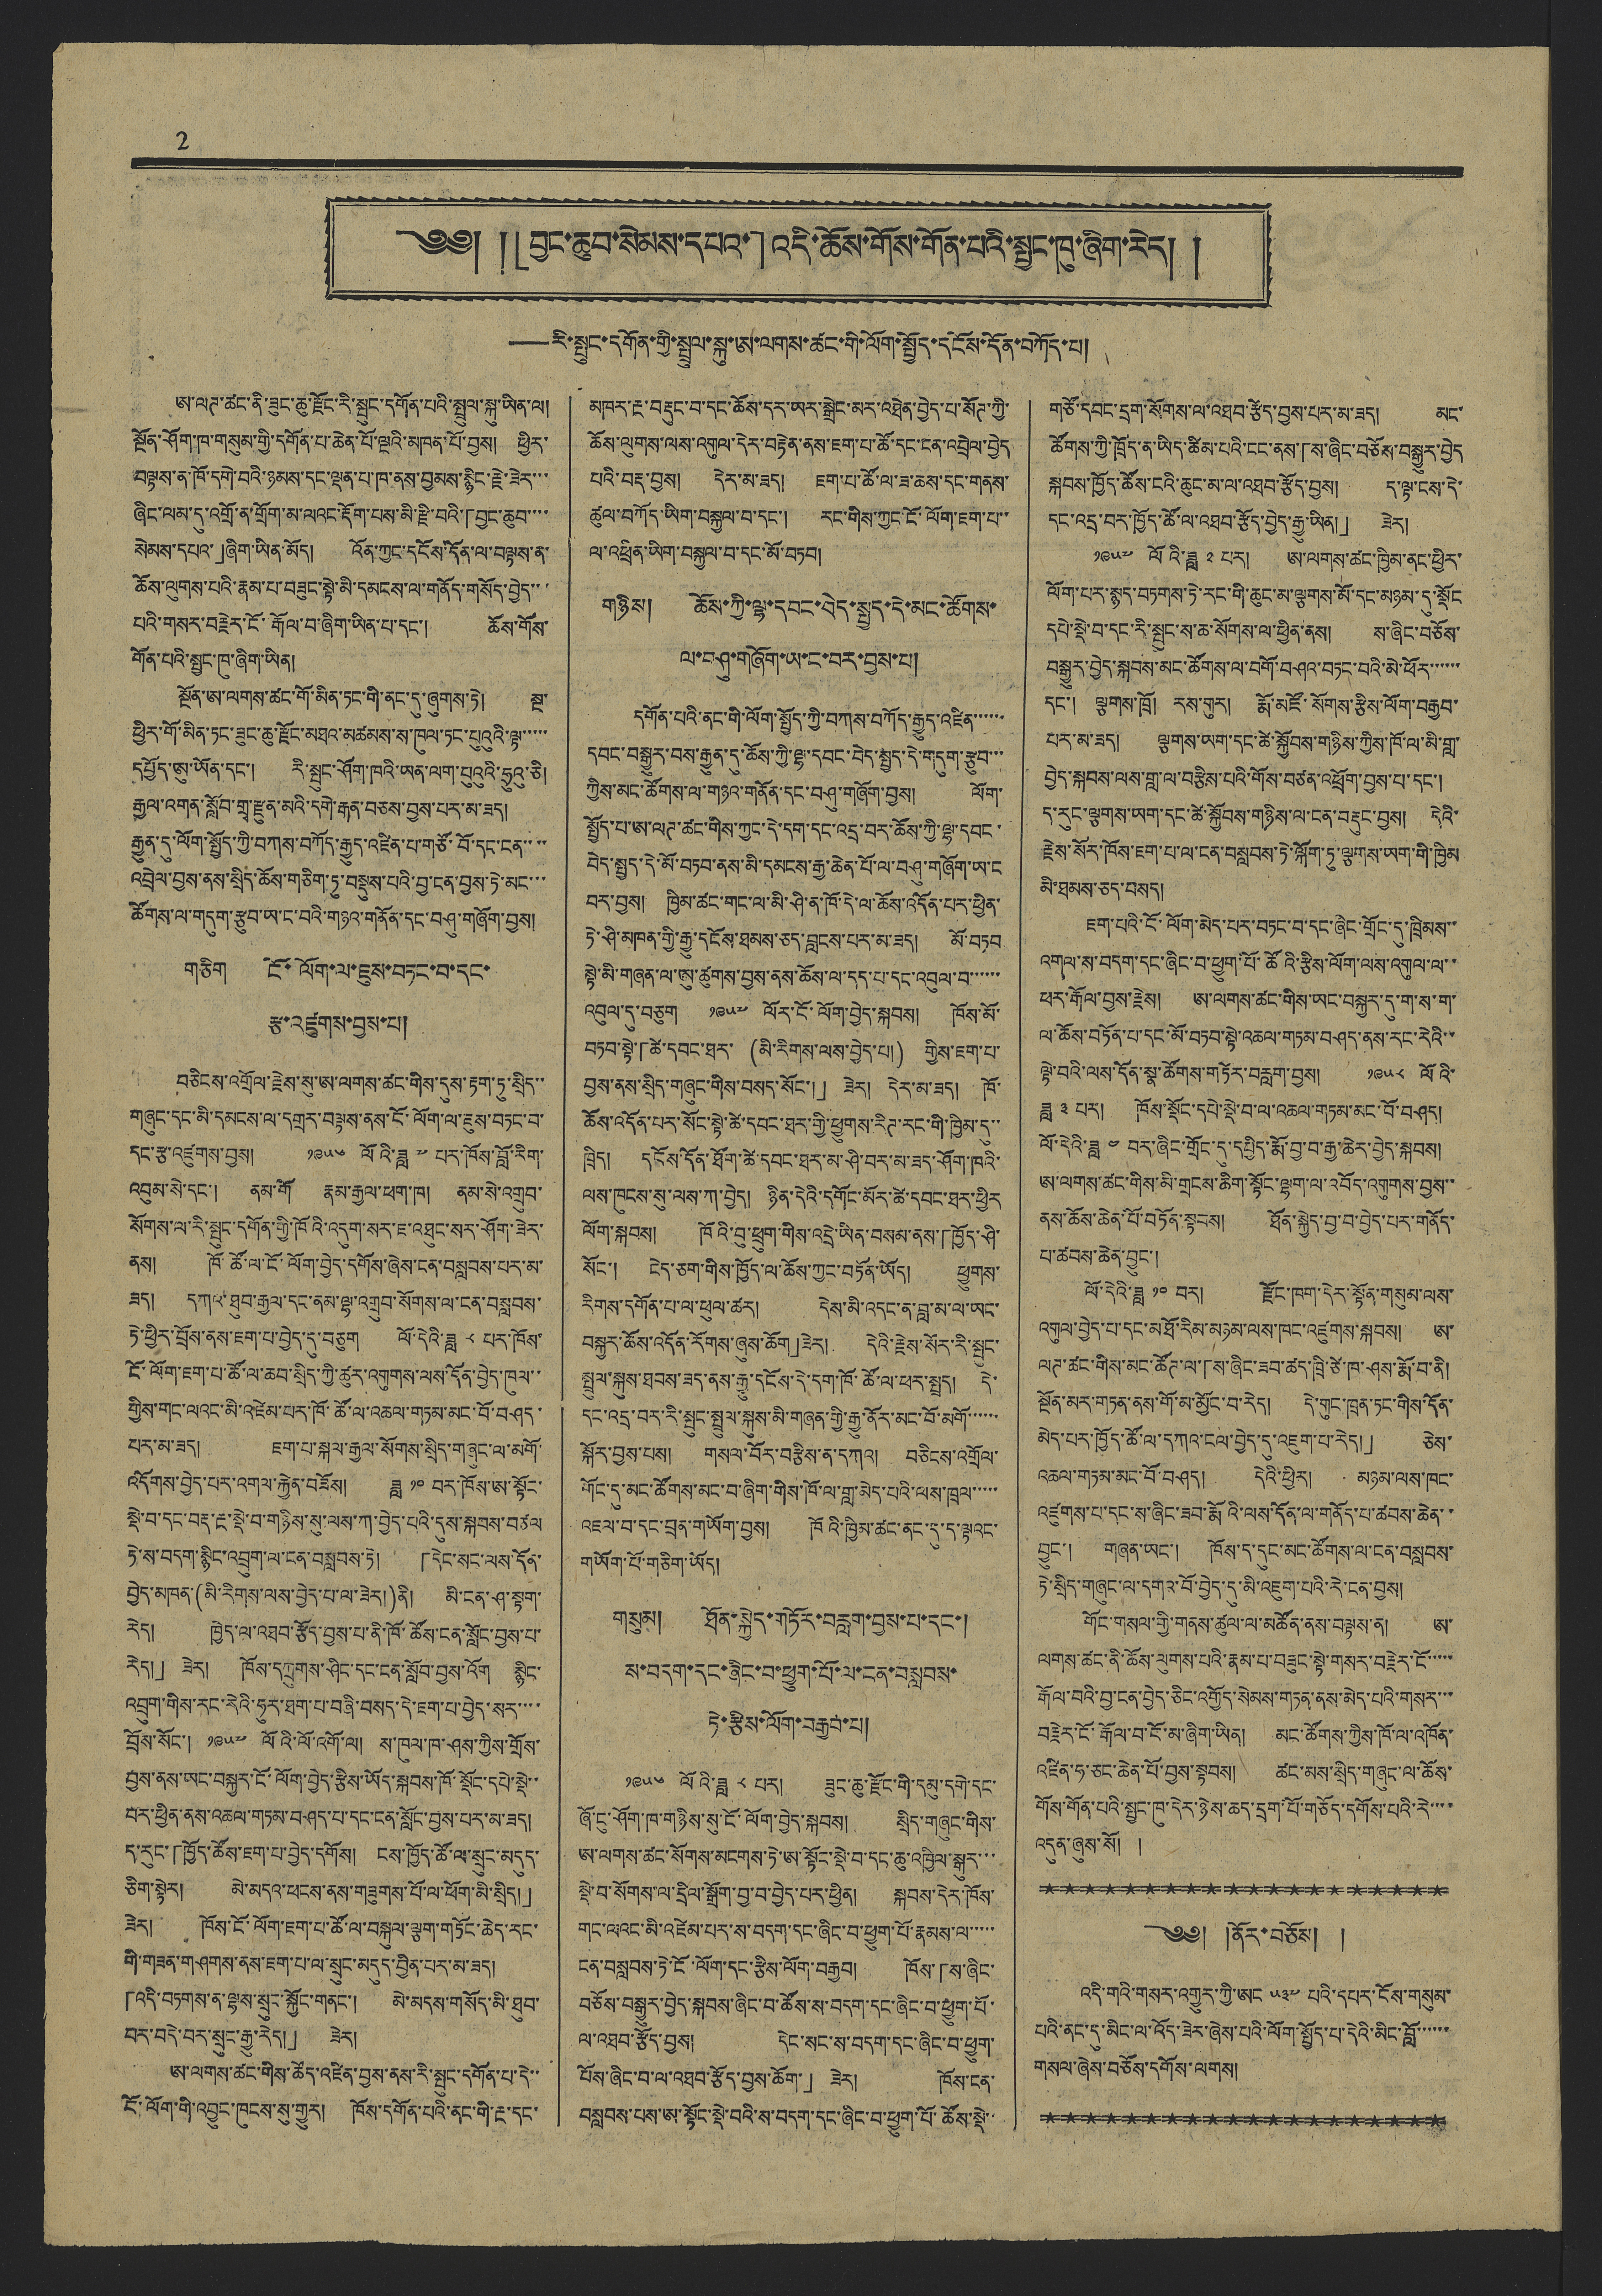2
༄༅། །「བྱང་ཆུབ་སེམས་དཔའ་」འདི་ཆོས་གོས་གོན་པའི་སྤྱང་ཁུ་ཞིག་རེད། །
——རི་སྤུང་དགོན་གྱི་སྤྲུལ་སྐུ་ཨ་ལགས་ཚང་གི་ལོག་སྤྱོད་དངོས་དོན་བཀོད་པ།
ཨ་ལཊ་ཚང་ནི་ཟུང་ཆུ་རྫོང་རི་སྤུང་དགོན་པའི་སྤྲུལ་སྐུ་ཡིན་ལ།
སྔོན་ཤོག་ཁ་གསུམ་གྱི་དགོན་པ་ཆེན་པོ་ལྔའི་མཁན་པོ་བྱས། ཕྱིར་
བལྟས་ན་ཁོ་དགེ་བའི་ཉམས་དང་ལྡན་པ་ཁ་ནས་བྱམས་སྙིང་རྗེ་ཟེར་་་
ཞིང་ལམ་དུ་འགྲོ་ན་གྲོག་མ་ལའང་རྡོག་པས་མི་རྫི་བའི་「བྱང་ཆུབ་་་་
སེམས་དཔའ་」ཞིག་ཡིན་མོད། འོན་ཀྱང་དངོས་དོན་ལ་བལྟས་ན་
ཆོས་ལུགས་པའི་རྣམ་པ་བཟུང་སྟེ་མི་དམངས་ལ་གནོད་གསོད་བྱེད་་་
པའི་གསར་བརྗེར་ངོ་རྒོལ་བ་ཞིག་ཡིན་པ་དང་། ཆོས་གོས་
གོན་པའི་སྤྱང་ཁུ་ཞིག་ཡིན།
སྔོན་ཨ་ལགས་ཚང་གོ་མིན་ཏང་གི་ནང་དུ་ཞུགས་ཏེ། སྔ་
ཕྱིར་གོ་མིན་ཏང་ཟུང་ཆུ་རྫོང་མཐའ་མཚམས་ས་ཁུལ་ཏང་པུའུའི་ལྟ་་་་་
དཔྱོད་ཨུ་ཡོན་དང་། རི་སྤུང་ཤོག་ཁའི་ཡན་ལག་པུའུའི་ཧྲུའུ་ཅི།
རྒྱལ་འགན་སློབ་གྲྭ་རྫུན་མའི་དགེ་རྒན་བཅས་བྱས་པར་མ་ཟད།
རྒྱུན་དུ་ལོག་སྤྱོད་ཀྱི་བཀས་བཀོད་རྒྱུད་འཛིན་པ་གཙོ་བོ་དང་ངན་་་་
འབྲེལ་བྱས་ནས་སྲིད་ཆོས་གཅིག་ཏུ་བསྡུས་པའི་བྱ་ངན་བྱས་ཏེ་མང་་་
ཚོགས་ལ་གདུག་རྩུབ་ཡ་ང་བའི་གཉའ་གནོན་དང་བཤུ་གཞོག་བྱས།
གཅིག ངོ་ལོག་ལ་ཇུས་བཏང་བ་དང་
རྩ་འཛུགས་བྱས་པ།
བཅིངས་འགྲོལ་རྗེས་སུ་ཨ་ལགས་ཚང་གིས་དུས་རྟག་ཏུ་སྲིད་་
གཞུང་དང་མི་དམངས་ལ་དགྲར་བལྟས་ནས་ངོ་ལོག་ལ་ཇུས་བཏང་བ་
དང་རྩ་འཛུགས་བྱས། ༡༩༥༦ ལོའི་ཟླ ༧ པར་ཁོས་བློ་རིག་
འབུམ་སེ་དང་། ནམ་གོ རྣམ་རྒྱལ་ཕག་ཁ། ནམ་སེ་འགྲུབ་
སོགས་ལ་རི་སྤུང་དགོན་གྱི་ཁོའི་འདུག་སར་ཇ་འཐུང་སར་ཤོག་ཟེར་
ནས། ཁོ་ཚོ་ལ་ངོ་ལོག་བྱེད་དགོས་ཞེས་ངན་བསླབས་པར་མ་
ཟད། དཀའ་ཐུབ་རྒྱལ་དང་ནམ་ལྷ་འགྲུབ་སོགས་ལ་ངན་བསླབས་
ཏེ་ཕྱིར་བྲོས་ནས་ཇག་པ་བྱེད་དུ་བཅུག ལོ་དེའི་ཟླ ༨ པར་ཁོས་
ངོ་ལོག་ཇག་པ་ཚོ་ལ་ཆབ་སྲིད་ཀྱི་ཚུར་འགུགས་ལས་དོན་བྱེད་ཁུལ་་
གྱིས་གང་ལའང་མི་འཛེམ་པར་ཁོ་ཚོ་ལ་འཆལ་གཏམ་མང་བོ་བཤད་
པར་མ་ཟད། ཇག་པ་སྐལ་རྒྱལ་སོགས་སྲིད་གཞུང་ལ་མགོ་
འདོགས་བྱེད་པར་འགལ་རྐྱེན་བཟོས། ཟླ ༡༠ བར་ཁོས་ཨ་སྟོང་
སྡེ་བ་དང་བརྡ་རྔ་སྡེ་བ་གཉིས་སུ་ལས་ཀ་བྱེད་པའི་དུས་སྐབས་བཙལ
ཏེ་ས་བདག་སྙིང་འབྲུག་ལ་ངན་བསླབས་ཏེ། 「དེང་སང་ལས་དོན་
བྱེད་མཁན་(མི་རིགས་ལས་བྱེད་པ་ལ་ཟེར།)ནི། མི་ངན་ཤ་སྟག་
རེད། ཁྱེད་ལ་འཐབ་རྩོད་བྱས་པ་ནི་ཁོ་ཚོས་ངན་སློང་བྱས་པ་
རེད།」 ཟེར། ཁོས་དཀྲུགས་ཤིང་དང་ངན་སློབ་བྱས་འོག སྙིང་
འབྲུག་གིས་རང་རེའི་ཧུར་ཐག་པ་བཞི་བསད་དེ་ཇག་པ་བྱེད་སར་་་་
བྲོས་སོང་། ༡༩༥༧ ལོའི་ལོ་འགོ་ལ། ས་ཁུལ་ཁ་ཤས་ཀྱིས་གྲོས་
བྱས་ནས་ཡང་བསྐྱར་ངོ་ལོག་བྱེད་རྩིས་ཡོད་སྐབས་ཁོ་སྡོང་དཔེ་སྡེ་་
བར་ཕྱིན་ནས་འཆལ་གཏམ་བཤད་པ་དང་ངན་སློང་བྱས་པར་མ་ཟད།
ད་རུང་「ཁྱོད་ཚོས་ཇག་པ་བྱེད་དགོས། ངས་ཁྱོད་ཚོ་ལ་སྲུང་མདུད་
ཅིག་སྟེར། མེ་མདའ་ཕངས་ནས་གཟུགས་པོ་ལ་ཕོག་མི་སྲིད།」
ཟེར། ཁོས་ངོ་ལོག་ཇག་པ་ཚོ་ལ་བསྐུལ་ལྕག་གཏོང་ཆེད་རང་
གི་གཟན་གཤགས་ནས་ཇག་པ་ལ་སྲུང་མདུད་བྱིན་པར་མ་ཟད།
「འདི་བཏགས་ན་ལྷས་སྲུང་སྐྱོང་གནང་། མེ་མདས་གསོད་མི་ཐུབ་
བར་བདེ་བར་སྲུང་རྒྱུ་རེད།」 ཟེར།
ཨ་ལགས་ཚང་གིས་ཚོད་འཛིན་བྱས་ནས་རི་སྤུང་དགོན་པ་དེ་་
ངོ་ལོག་གི་འབྱུང་ཁུངས་སུ་གྱུར། ཁོས་དགོན་པའི་ནང་གི་རྔ་དང་
མཁར་རྔ་བརྡུང་བ་དང་ཆོས་དར་ཡར་སྒྲེང་མར་འཐེན་བྱེད་པ་སོཊ་ཀྱི་
ཆོས་ལུགས་ལས་འགུལ་དེར་བརྟེན་ནས་ཇག་པ་ཚོ་དང་ངན་འབྲེལ་བྱེད
པའི་བརྡ་བྱས། དེར་མ་ཟད། ཇག་པ་ཚོ་ལ་ཇ་ཆས་དང་གནས་
ཚུལ་བཀོད་ཡིག་བསྐྱལ་བ་དང་། རང་གིས་ཀྱང་ངོ་ལོག་ཇག་པ་་
ལ་འཕྲིན་ཡིག་བསྐྱལ་བ་དང་མོ་བཏབ།
གཉིས། ཆོས་ཀྱི་ལྷ་དབང་བེད་སྤྱད་དེ་མང་ཚོགས་
ལ་བཤུ་གཞོག་ཡ་ང་བར་བྱས་པ།
དགོན་པའི་ནང་གི་ལོག་སྤྱོད་ཀྱི་བཀས་བཀོད་རྒྱུད་འཛིན་་་་་་
དབང་བསྒྱུར་བས་རྒྱུན་དུ་ཆོས་ཀྱི་ལྷ་དབང་བེད་སྤྱད་དེ་གདུག་རྩུབ་་་
ཀྱིས་མང་ཚོགས་ལ་གཉའ་གནོན་དང་བཤུ་གཞོག་བྱས། ལོག་
སྤྱོད་པ་ཨ་ལཊ་ཚང་གིས་ཀྱང་དེ་དག་དང་འདྲ་བར་ཆོས་ཀྱི་ལྷ་དབང་
བེད་སྤྱད་དེ་མོ་བཏབ་ནས་མི་དམངས་རྒྱ་ཆེན་པོ་ལ་བཤུ་གཞོག་ཡ་ང
བར་བྱས། ཁྱིམ་ཚང་གང་ལ་མི་ཤི་ན་ཁོ་དེ་ལ་ཆོས་འདོན་པར་ཕྱིན་
ཏེ་ཤི་མཁན་གྱི་རྒྱུ་དངོས་ཐམས་ཅད་བླངས་པར་མ་ཟད། མོ་བཏབ
སྟེ་མི་གཞན་ལ་ཨུ་ཚུགས་བྱས་ནས་ཆོས་ལ་དད་པ་དང་འབུལ་བ་་་་་་
འབུལ་དུ་བཅུག ༡༩༥༧ ལོར་ངོ་ལོག་བྱེད་སྐབས། ཁོས་མོ་
བཏབ་སྟེ་「ཚེ་དབང་ཐར་ (མི་རིགས་ལས་བྱེད་པ།) གྱིས་ཇག་པ་
བྱས་ནས་སྲིད་གཞུང་གིས་བསད་སོང་།」 ཟེར། དེར་མ་ཟད། ཁོ་
ཆོས་འདོན་པར་སོང་སྟེ་ཚེ་དབང་ཐར་གྱི་ཕྱུགས་རིཊ་རང་གི་ཁྱིམ་དུ་་
ཁྲིད། དངོས་དོན་ཐོག་ཚེ་དབང་ཐར་མ་ཤི་བར་མ་ཟད་ཤོག་ཁའི་
ལས་ཁུངས་སུ་ལས་ཀ་བྱེད། ཉིན་དེའི་དགོང་མོར་ཚེ་དབང་ཐར་ཕྱིར
ལོག་སྐབས། ཁོའི་བུ་ཕྲུག་གིས་འདྲེ་ཡིན་བསམ་ནས་「ཁྱོད་ཤི་
སོང་། ངེད་ཅག་གིས་ཁྱོད་ལ་ཆོས་ཀྱང་བཏོན་ཡོད། ཕྱུགས་
རིགས་དགོན་པ་ལ་ཕུལ་ཚར། དེས་མི་འདང་ན་བླ་མ་ལ་ཡང་
བསྐྱར་ཆོས་འདོན་རིགས་ཞུས་ཆོག」ཟེར། དེའི་རྗེས་སོར་རི་སྤུང་
སྤྲུལ་སྐུས་ཐབས་ཟད་ནས་རྒྱུ་དངོས་དེ་དག་ཁོ་ཚོ་ལ་ཕར་སྤྲད། དེ་
དང་འདྲ་བར་རི་སྤྲུང་སྤྲུལ་སྐུས་མི་གཞན་གྱི་རྒྱུ་ནོར་མང་བོ་མགོ་་་་་་
སྐོར་བྱས་པས། གསལ་བོར་བརྩིས་ན་དཀའ། བཅིངས་འགྲོལ་
གོང་དུ་མང་ཚོགས་མང་བ་ཞིག་གིས་ཁོ་ལ་གླ་མེད་པའི་ལས་ཁྲལ་་་་་
འཇལ་བ་དང་བྲན་གཡོག་བྱས། ཁོའི་ཁྱིམ་ཚང་ནང་དུ་ད་ལྟའང་
གཡོག་པོ་གཅིག་ཡོད།
གསུམ། ཐོན་སྐྱེད་གཏོར་བརླག་བྱས་པ་དང་།
ས་བདག་དང་ཞིང་བ་ཕྱུག་པོ་ལ་ངན་བསླབས་
ཏེ་རྩིས་ལོག་བརྒྱབ་པ།
༡༩༥༦ ལོའི་ཟླ ༨ པར། ཟུང་ཆུ་རྫོང་གི་དམུ་དགེ་དང་
ཞོ་ངུ་ཤོག་ཁ་གཉིས་སུ་ངོ་ལོག་བྱེད་སྐབས། སྲིད་གཞུང་གིས་
ཨ་ལགས་ཚང་སོགས་མངགས་ཏེ་ཨ་སྟོང་སྡེ་བ་དང་ཆུ་འཁྱིལ་སྒུར་་་
སྡེ་བ་སོགས་ལ་དྲིལ་སྒྲོག་བྱ་བ་བྱེད་པར་ཕྱིན། སྐབས་དེར་ཁོས་
གང་ལའང་མི་འཛེམ་པར་ས་བདག་དང་ཞིང་བ་ཕྱུག་པོ་རྣམས་ལ་་་་་
ངན་བསླབས་ཏེ་ངོ་ལོག་དང་རྩིས་ལོག་བརྒྱབ། ཁོས་「ས་ཞིང་
བཅོས་བསྒྱུར་བྱེད་སྐབས་ཞིང་བ་ཚོས་ས་བདག་དང་ཞིང་བ་ཕྱུག་པོ་
ལ་འཐབ་རྩོད་བྱས། དེང་སང་ས་བདག་དང་ཞིང་བ་ཕྱུག་
པོས་ཞིང་བ་ལ་འཐབ་རྩོད་བྱས་ཆོག་」 ཟེར། ཁོས་ངན་
བསླབས་པས་ཨ་སྟོང་སྡེ་བའི་ས་བདག་དང་ཞིང་བ་ཕྱུག་པོ་ཚོས་སྡེ་་
གཙོ་དབང་དྲག་སོགས་ལ་འཐབ་རྩོད་བྱས་པར་མ་ཟད། མང་
ཚོགས་ཀྱི་ཁྲོད་ན་ཡིད་ཚིམ་པའི་ངང་ནས་「ས་ཞིང་བཅོས་བསྒྱུར་བྱེད
སྐབས་ཁྱོད་ཚོས་ངའི་ཆུང་མ་ལ་འཐབ་རྩོད་བྱས། ད་ལྟ་ངས་དེ་
དང་འདྲ་བར་ཁྱོད་ཚོ་ལ་འཐབ་རྩོད་བྱེད་རྒྱུ་ཡིན།」 ཟེར།
༡༩༥༧ ལོའི་ཟླ ༢ པར། ཨ་ལགས་ཚང་ཁྱིམ་ནང་ཕྱིར་
ལོག་པར་སྙད་བཏགས་ཏེ་རང་གི་ཆུང་མ་ལྕགས་མོ་དང་མཉམ་དུ་སྡོང
དཔེ་སྡེ་བ་དང་རི་སྤུང་ས་ཆ་སོགས་ལ་ཕྱིན་ནས། ས་ཞིང་བཅོས་
བསྒྱུར་བྱེད་སྐབས་མང་ཚོགས་ལ་བགོ་བཤའ་བཏང་བའི་མེ་ཕོར་་་་་་
དང་། ལྕགས་ཁྲོ། རས་གུར། རྨོ་མཛོ་སོགས་རྩིས་ལོག་བརྒྱབ་
པར་མ་ཟད། ལྕགས་ཡག་དང་ཚེ་སྐྱོབས་གཉིས་ཀྱིས་ཁོ་ལ་མི་གླ་
བྱེད་སྐབས་ལས་གླ་ལ་བརྩིས་པའི་གོས་བཙན་འཕྲོག་བྱས་པ་དང་།
ད་རུང་ལྕགས་ཡག་དང་ཚེ་སྐྱོབས་གཉིས་ལ་ངན་བརྡུང་བྱས། དེའི་
རྗེས་སོར་ཁོས་ཇག་པ་ལ་ངན་བསླབས་ཏེ་ལྐོག་ཏུ་ལྕགས་ཡག་གི་ཁྱིམ
མི་ཐམས་ཅད་བསད།
ཇག་པའི་ངོ་ལོག་མེད་པར་བཏང་བ་དང་ཞིང་གྲོང་དུ་ཁྲིམས་་
འགལ་ས་བདག་དང་ཞིང་བ་ཕྱུག་པོ་ཚོའི་རྩིས་ལོག་ལས་འགུལ་ལ་་
ཕར་རྒོལ་བྱས་རྗེས། ཨ་ལགས་ཚང་གིས་ཡང་བསྐྱར་དུ་ག་ས་ག་
ལ་ཆོས་བཏོན་པ་དང་མོ་བཏབ་སྟེ་འཆལ་གཏམ་བཤད་ནས་རང་རེའི་་
ལྟེ་བའི་ལས་དོན་སྣ་ཚོགས་གཏོར་བརླག་བྱས། ༡༩༥༨ ལོའི་
ཟླ ༣ པར། ཁོས་སྡོང་དཔེ་སྡེ་བ་ལ་འཆལ་གཏམ་མང་བོ་བཤད།
ལོ་དེའི་ཟླ ༤ བར་ཞིང་གྲོང་དུ་དཔྱིད་རྨོ་བྱ་བ་རྒྱ་ཆེར་བྱེད་སྐབས།
ཨ་ལགས་ཚང་གིས་མི་གྲངས་ཆིག་སྟོང་ལྷག་ལ་འབོད་འགུགས་བྱས་་
ནས་ཆོས་ཆེན་པོ་བཏོན་སྟབས། ཐོན་སྐྱེད་བྱ་བ་བྱེད་པར་གནོད་
པ་ཚབས་ཆེན་བྱུང་།
ལོ་དེའི་ཟླ ༡༠ བར། རྫོང་ཁག་དེར་སྟོན་གསུམ་ལས་
འགུལ་བྱེད་པ་དང་མཐོ་རིམ་མཉམ་ལས་ཁང་འཛུགས་སྐབས། ཨ་
ལཊ་ཚང་གིས་མང་ཚོཊ་ལ་「ས་ཞིང་ཟབ་ཚད་ཁྲི་ཙེ་ཁ་ཤས་རྨོ་བ་ནི།
སྔོན་མར་གཏན་ནས་གོ་མ་མྱོང་བ་རེད། དེ་གུང་ཁྲན་ཏང་གིས་དོན་
མེད་པར་ཁྱོད་ཚོ་ལ་དཀའ་ངལ་བྱེད་དུ་འཇུག་པ་རེད།」 ཅེས་
འཆལ་གཏམ་མང་བོ་བཤད། དེའི་ཕྱིར། མཉམ་ལས་ཁང་
འཛུགས་པ་དང་ས་ཞིང་ཟབ་རྨོའི་ལས་དོན་ལ་གནོད་པ་ཚབས་ཆེན་་
བྱུང་། གཞན་ཡང་། ཁོས་ད་དུང་མང་ཚོགས་ལ་ངན་བསླབས་
ཏེ་སྲིད་གཞུང་ལ་དགའ་བོ་བྱེད་དུ་མི་འཇུག་པའི་རེ་ངན་བྱས།
གོང་གསལ་གྱི་གནས་ཚུལ་ལ་མཚོན་ནས་བལྟས་ན། ཨ་
ལགས་ཚང་ནི་ཆོས་ལུགས་པའི་རྣམ་པ་བཟུང་སྟེ་གསར་བརྗེར་ངོ་་་་་
རྒོལ་བའི་བྱ་ངན་བྱེད་ཅིང་འགྱོད་སེམས་གཏན་ནས་མེད་པའི་གསར་་་
བརྗེར་ངོ་རྒོལ་བ་ངོ་མ་ཞིག་ཡིན། མང་ཚོགས་ཀྱི་ཁོ་ལ་འཁོན་
འཛིན་ཧ་ཅང་ཆེན་པོ་བྱས་སྟབས། ཚང་མས་སྲིད་གཞུང་ལ་ཆོས་
གོས་གོན་པའི་སྤྱང་ཁུ་དེར་ཉེས་ཆད་དྲག་པོ་གཅོད་དགོས་པའི་རེ་་་་
འདུན་ཞུས་སོ། །
༄༅། །ནོར་བཅོས། །
འདི་གའི་གསར་འགྱུར་ཀྱི་ཨང ༥༣༧ པའི་དཔར་ངོས་གསུམ་
པའི་ནང་དུ་མིང་ལ་འོད་ཟེར་ཞེས་པའི་ལོག་སྤྱོད་པ་དེའི་མིང་བློ་་་་་་
གསལ་ཞེས་བཅོས་དགོས་ལགས།
